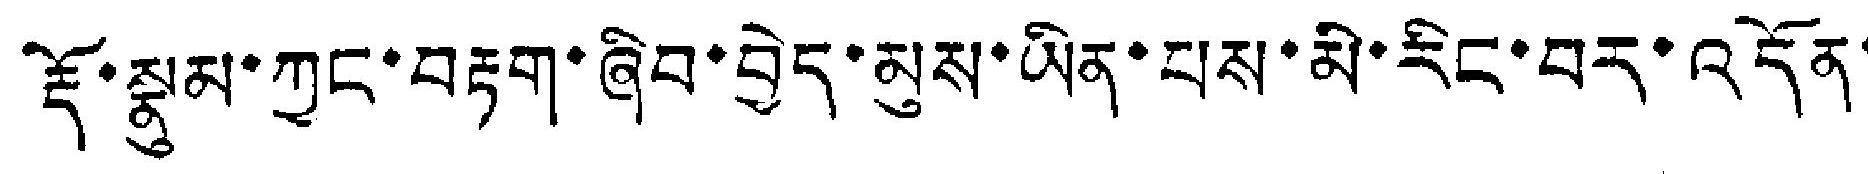རྡོ་སྣུམ་ཀྱང་བརྟག་ཞིབ་བྱེད་མུས་ཡིན་པས་མི་རིང་བར་འདོན་
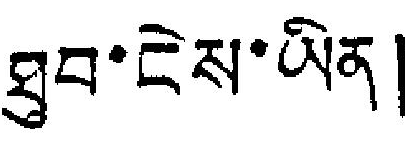ཐུབ་ངེས་ཡིན།
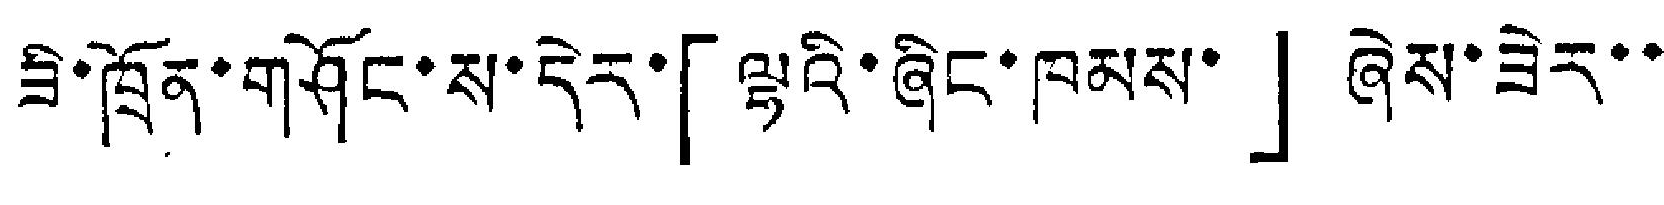ཟེ་ཁྲོན་གཤོང་ས་དེར་「ལྟའི་ཞིང་ཁམས་」ཞེས་ཟེར་་
